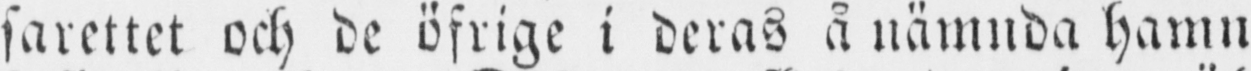sarettet och de öfrige i deras å nämnda hamn
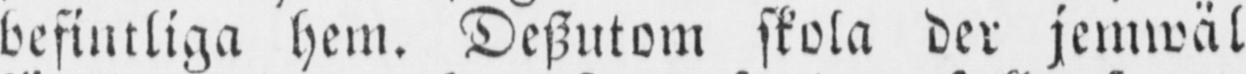befintliga hem. Deszutom skola der jemwäl
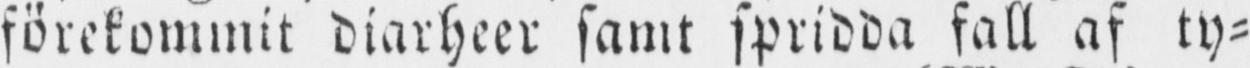förekommit diarheer samt spridda fall af ty-
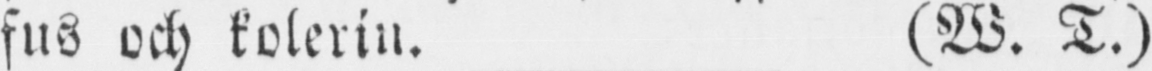fus och kolerin. (W. T.)
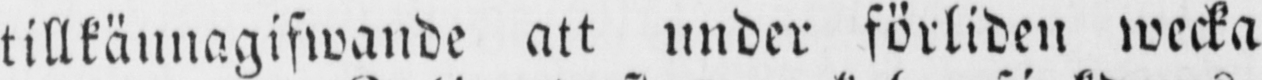tillkännagifwande att under förliden wecka
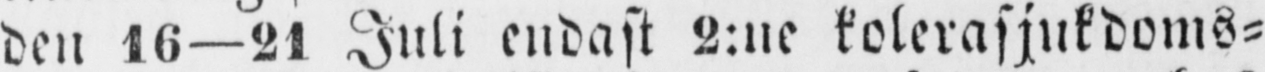den 16—21 Juli endast 2:ne kolerasjukdoms-
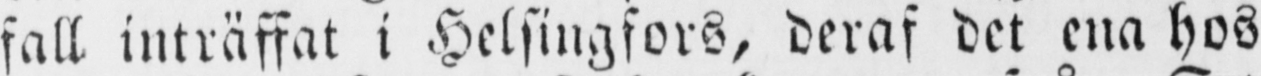fall inträffat i Helsingfors, deraf det ena hos
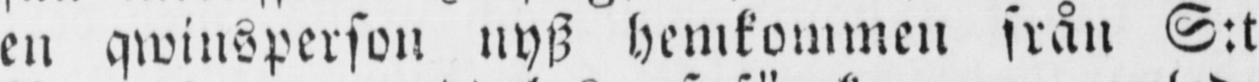en qwinsperson nysz hemkommen från S:t
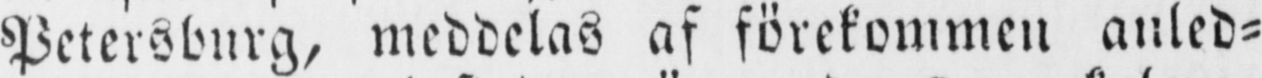Petersburg, meddelas af förekommen anled-
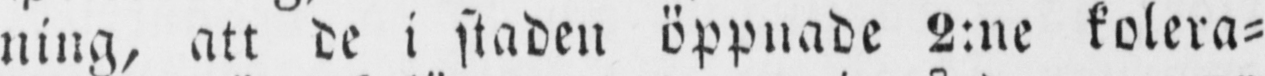ning, att de i staden öppnade 2:ne kolera-
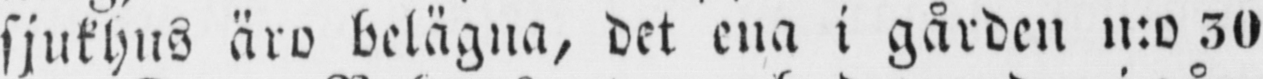sjukhus äro belägna, det ena i gården n:o 30
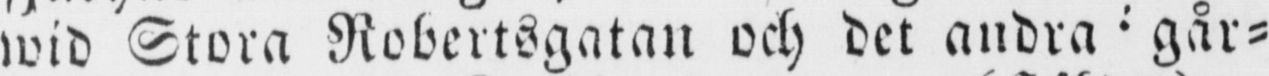wid Stora Robertsgatan och det andra går-
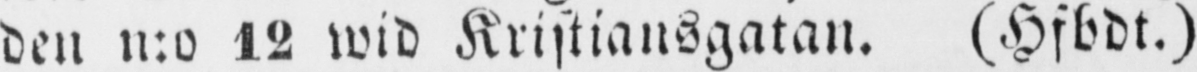den n:o 12 wid Kristiansgatan. (Hfbdt.)
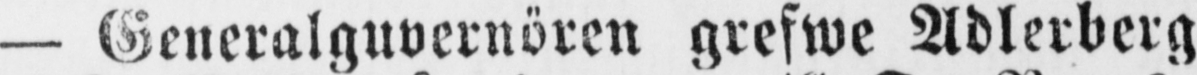— Generalguvernören grefwe Adlerberg
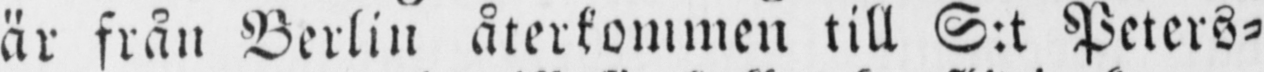är från Berlin återkommen till S:t Peters-
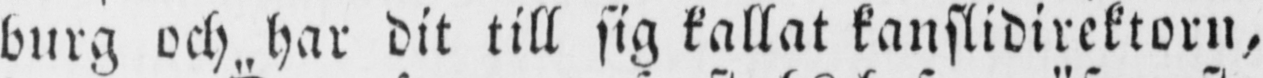burg och har dit till sig kallat kanslidirektorn,
